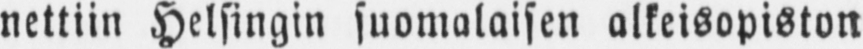nettiin Helsingin suomalaisen alkeisopiston
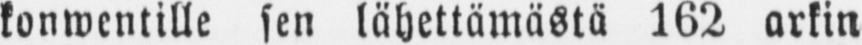konwentille sen lähettämästä 162 arkin
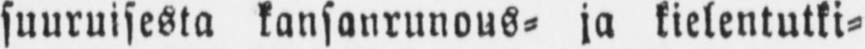suuruisesta kansanrunous- ja kielentutki-
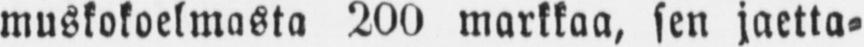muskokoelmasta 200 markkaa, sen jaetta-
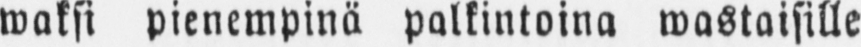waksi pienempinä palkintoina wastaisille
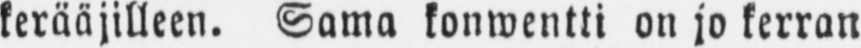kerääjilleen. Sama konwentti on jo kerran
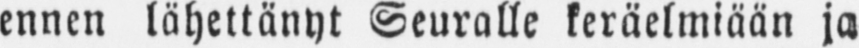ennen lähettänyt Seuralle keräelmiään ja
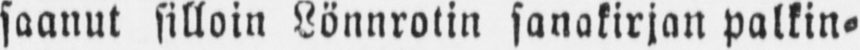saanut silloin Lönnrotin sanakirjan palkin-
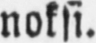noksi.
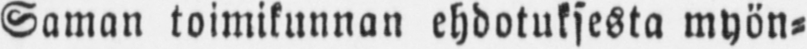Saman toimikunnan ehdotuksesta myön-
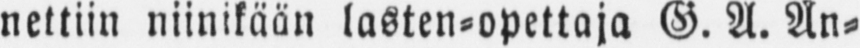nettiin niinikään lasten-opettaja G. A. An-
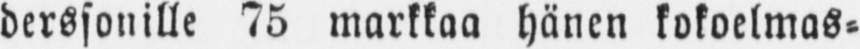derssonille 75 markkaa hänen kokoelmas-
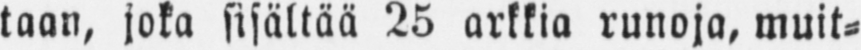taan, joka sisältää 25 arkkia runoja, muit-
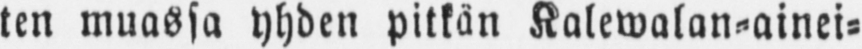ten muassa yhden pitkän Kalewalan-ainei-
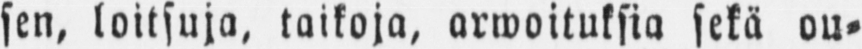sen, loitsuja, taikoja, arwoituksia sekä ou-
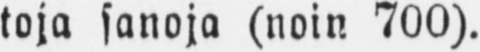toja sanoja (noin 700).
